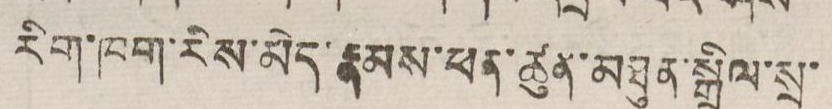རིག་ཁག་རིས་མེད་རྣམས་ཕན་ཚུན་མཐུན་སྒྲིལ་སྲ་
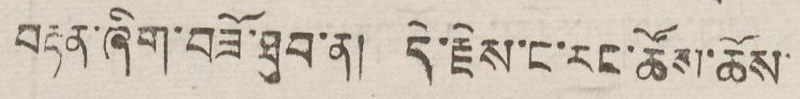བརྟན་ཞིག་བཟོ་ཐུབ་ན། དེ་རྗེས་ང་རང་ཚོས་ཆོས་
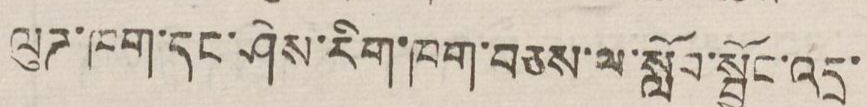ལུཊ་ཁག་དང་ཤེས་རིག་ཁག་བཅས་ལ་སློབ་སྦྱོང་འདྲ་
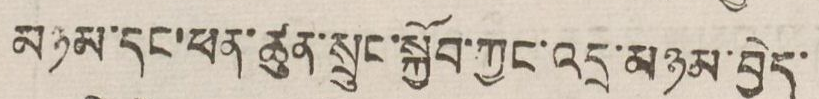མཉམ་དང་ཕན་ཚུན་སྲུང་སྐྱོབ་ཀྱང་འདྲ་མཉམ་བྱེད་
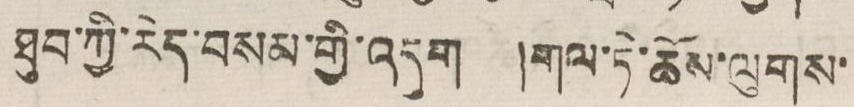ཐུབ་ཀྱི་རེད་བསམ་གྱི་འདུག །གལ་ཏེ་ཆོས་ལུགས་
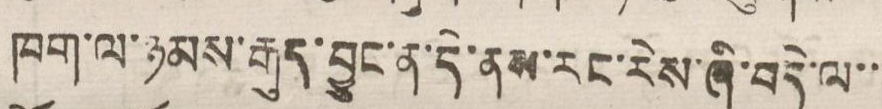ཁག་ལ་ཉམས་རྒུད་བྱུང་ན་དེ་ནས་རང་རེས་ཞི་བདེ་ལ་་
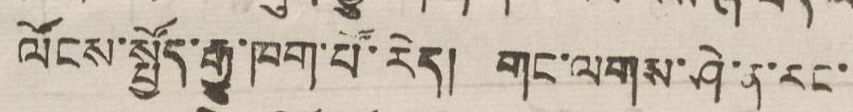ལོངས་སྤྱོད་རྒྱུ་ཁག་པོ་རེད། གང་ལགས་ཤེ་ན་རང་
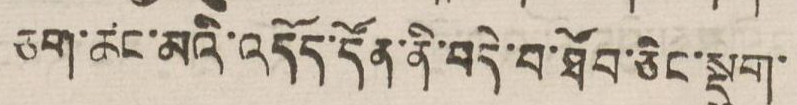ཅག་ཚང་མའི་འདོད་དོན་ནི་བདེ་བ་ཐོབ་ཅིང་སྡུག་
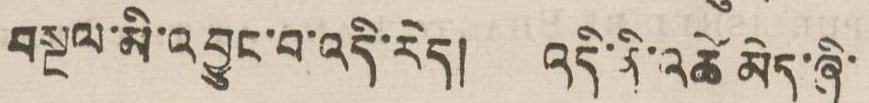བསྔལ་མི་འབྱུང་བ་འདི་རེད། འདི་ནི་འཚེ མེད་ཞི་
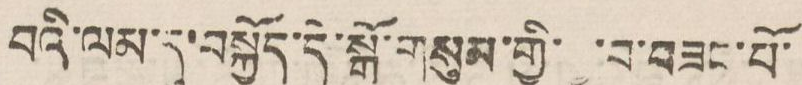བའི་ལམ་དུ་བསྐྱོད་དེ་སྒོ་གསུམ་གྱི་བྱ་བ་བཟང་པོ་
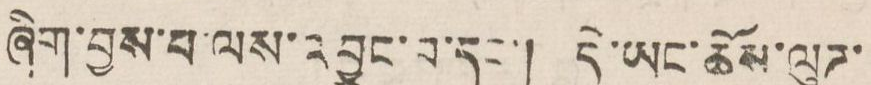ཞིག་བྱས་པ་ལས་འབྱུང་བ་དང་། དེ་ཡང་ཆོས་ལུཊ་
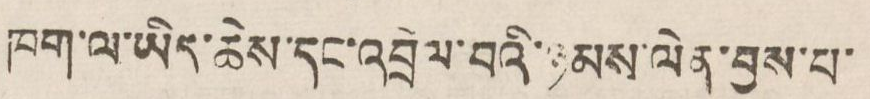ཁག་ལ་ཡིད་ཆེས་དང་འབྲེལ་བའི་ཉམས་ལེན་བྱས་པ་
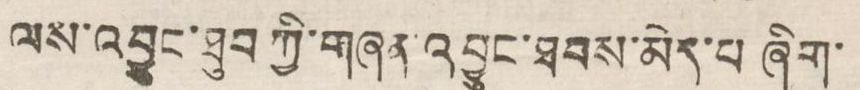ལས་འབྱུང་ཐུབ་ཀྱི་གཞན་འབྱུང་ཐབས་མེད་པ ཞིག་
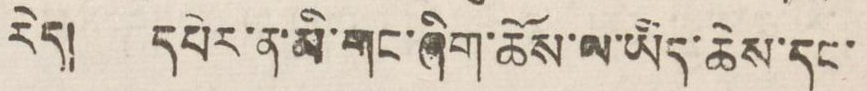རེད། དཔེར་ན་མི་གང་ཞིག་ཆོས་ལ་ཡིད་ཆེས་དང་
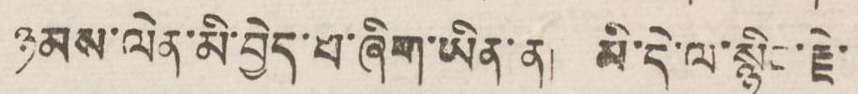ཉམས་ལེན་མི་བྱེད་པ་ཞིག་ཡིན་ན། མི་དེ་ལ་སྙིང་རྗེ་
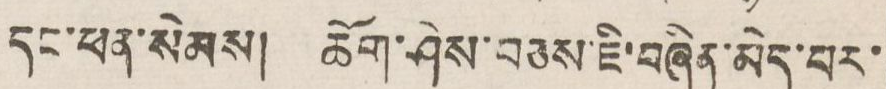དང་ཕན་སེམས། ཆོག་ཤེས་བཅས་ཇི་བཞིན་མེད་པར་
